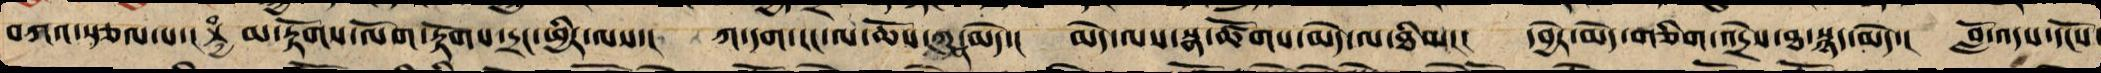བཀའ་སྩལ་པ། མ་རྟོགས་ལོག་རྟོགས་དྲང་ཕྱིར་ལས། །ཀ་དག་ངང་ལ་ཆོས་ཀུན་མེད། །མེད་ལས་སྣ་ཚོགས་མེད་ལ་ཐིམ། །དབྱེར་མེད་གཅིག་འདྲེས་ཐ་སྙད་མེད། །བློ་འདས་དངོས་
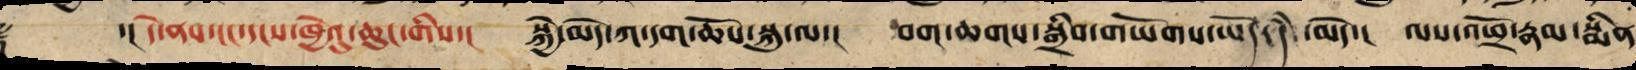༈ ་།། དེ་ནས་ངང་དངས་ཁྱེའུ་ཆུང་གིས་། སྐྱེ་མེད་ཀ་དག་ཆོས་སྐུ་ལ་། བག་ཆགས་སྒྲིབ་གཡོགས་ཡོད་དམ་མེད་། ལས་འཕྲོ་རྣམ་སྨིན
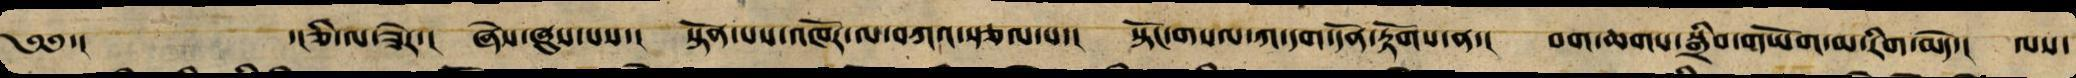༄༅་། ཅི་ལ་ཟེར་། ཞེས་ཞུས་པས་། སྟོན་པས་འཁོར་ལ་བཀའ་སྩལ་པ་། སྟོང་གསལ་ཀ་དག་དོན་རྟོགས་ན་། བག་ཆགས་སྒྲིབ་གཡོགས་མ་རིག་མེད་། ལས་
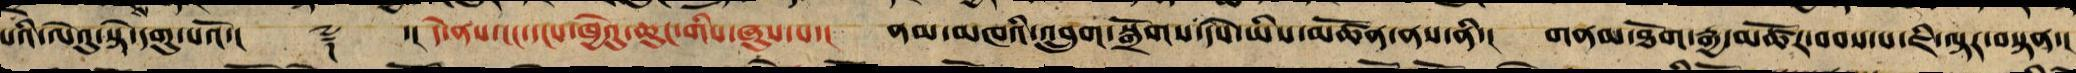པའི་ལེའུ་སྟེ་དགུ་པའོ་།། ༈ ་།། དེ་ནས་ངང་དངས་ཁྱེའུ་ཆུང་གིས་ཞུས་པ་། ནམ་མཁའི་འབྲུག་སྒྲོགས་དཔེ་ཡིས་མཚོན་ནས་ནི་། གནམ་ཐོག་རྒྱ་མཚོར་བབས་པ་ཇི་ལྟར་བསྟན་།
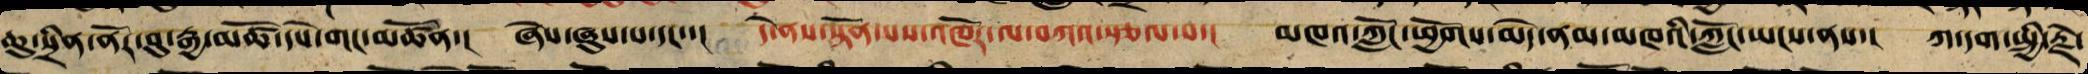ཆུ་སྲིན་ནོར་བུ་རྒྱ་མདུད་དཔེ་གང་མཚོན་། ཞེས་ཞུས་པ་དང་་། དེ་ནས་སྟོན་པས་འཁོར་ལ་བཀའ་སྩལ་པ་། མཁའ་ཀློང་ཕྱོགས་མེད་ནམ་མཁའི་ཀློང་ཡངས་ནས་། ཀ་དག་སྤྱི་རྗེ་
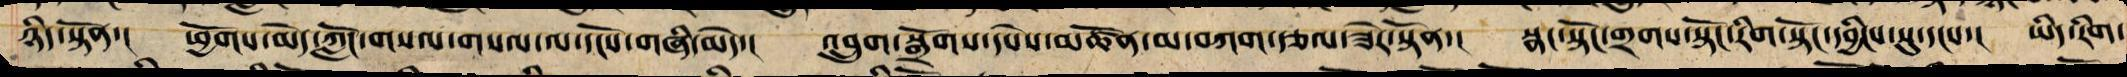ཉིད་སྟོན་། ཕྱོགས་མེད་སྟོང་གསལ་གསལ་ལ་དངོས་གཞི་མེད་། འབྲུག་སྒྲོག་དཔེས་མཚོན་མ་བཀག་རྩལ་ཟེར་སྟོན་། སྣང་སྟོང་གྲག་སྟོང་རིག་སྟོང་དབྱིངས་སུ་དངས་། ཡིད་རིག་
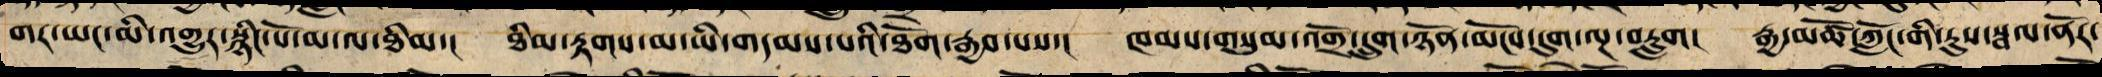གར་ཡང་མི་འགྱུ་སྙིང་པོ་མ་ལ་ཐིམ་། ཐིམ་རྟགས་མ་ཡི་གདམས་པའི་ཐོག་བརྒྱབ་པས་། ཁམས་གསུམ་འགྲོ་དྲུག་ཉོན་མོངས་དུག་ལྔ་བརླག། རྒྱ་མཚོ་ཀློང་གི་རུས་སྦལ་ནོར་
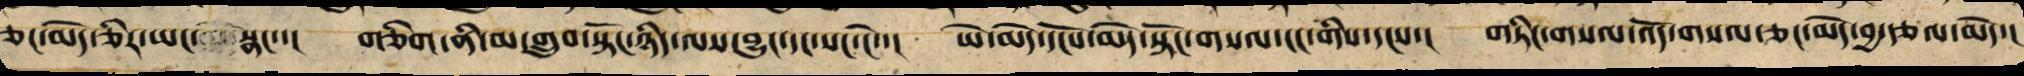ཅང་མེད་ཅིར་ཡང་སྣང་་། གཅིག་ནི་མ་གྲུབ་སྟོང་ཉིད་ལས་བྱུང་དང་སང་ངེ་་། ཡེ་མེད་དངོས་མེད་སྟོང་གསལ་ངང་གིས་དངས་། གཏིང་གསལ་འོད་གསལ་ཅང་མེད་བྱ་རྩལ་མེད་།
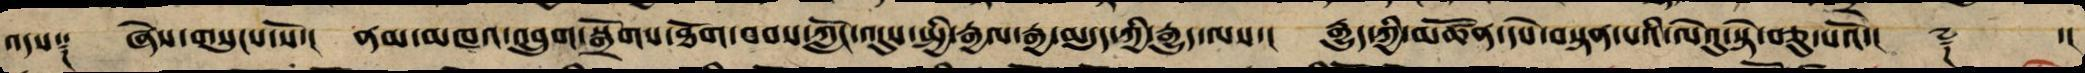འདས༑ ཞེས་གསུངས་སོ་། ནམ་མཁའ་འབྲུག་སྒྲོགས་ཐོག་བབས་ཀློང་འདུས་སྤྱི་རྒྱལ་རྒྱ་མདུད་ཀྱི་རྒྱུད་ལས་། རྒྱུད་ཀྱི་མཚོན་དཔེ་བསྟན་པའི་ལེའུ་སྟེ་བཅུ་པའོ་།། ༈ ་།།
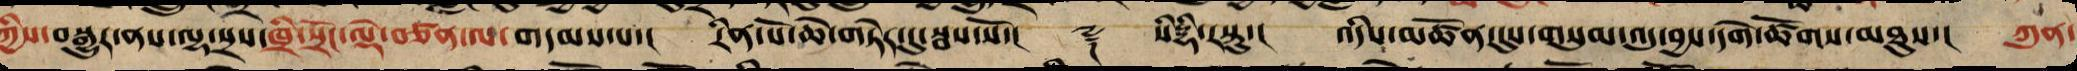ཀྱིས་བསྒྱུར་ནས་ལྷ་སྲས་ཁྲི་སྲོང་ལྡེ་བཙན་ལ་གདམས་པ་། རིན་པོ་ཆེའི་གཏེར་དུ་སྦས་སོ་།། ༈ །སིདྡྷི་རསྟུ་།  འདིས་མཚོན་དུས་གསུམ་འདུ་བྱས་དགེ་ཚོགས་མཐུས་། ཀུན་
